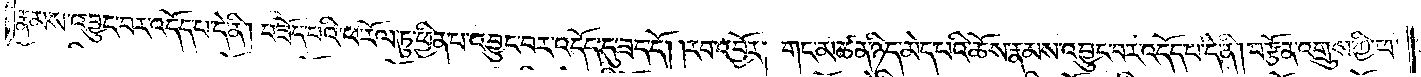རྣམས་འབྱུང་བར་འདོད་པ་དེ་ནི། བཟོད་པའི་ཕ་རོལ་ཏུ་ཕྱིན་པ་འབྱུང་བར་འདོད་དུ་ཟད་དོ། །རབ་འབྱོར། གང་མཚན་ཉིད་མེད་པའི་ཆོས་རྣམས་འབྱུང་བར་འདོད་པ་དེ་ནི། བརྩོན་འགྲུས་ཀྱི་ཕ་
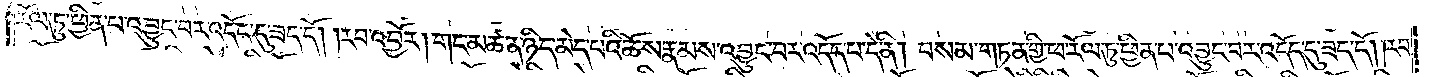རོལ་ཏུ་ཕྱིན་པ་འབྱུང་བར་འདོད་དུ་ཟད་དོ། །རབ་འབྱོར། གང་མཚན་ཉིད་མེད་པའི་ཆོས་རྣམས་འབྱུང་བར་འདོད་པ་དེ་ནི། བསམ་གཏན་གྱི་ཕ་རོལ་ཏུ་ཕྱིན་པ་འབྱུང་བར་འདོད་དུ་ཟད་དོ། །རབ་
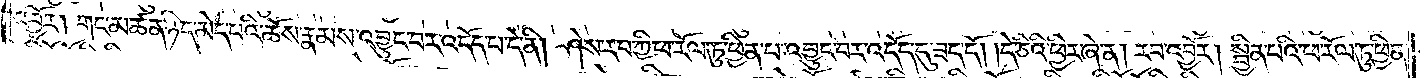འབྱོར། གང་མཚན་ཉིད་མེད་པའི་ཆོས་རྣམས་འབྱུང་བར་འདོད་པ་དེ་ནི། ཤེས་རབ་ཀྱི་ཕ་རོལ་ཏུ་ཕྱིན་པ་འབྱུང་བར་འདོད་དུ་ཟད་དོ། །དེ་ཅིའི་ཕྱིར་ཞེ་ན། རབ་འབྱོར། སྦྱིན་པའི་ཕ་རོལ་ཏུ་ཕྱིན་
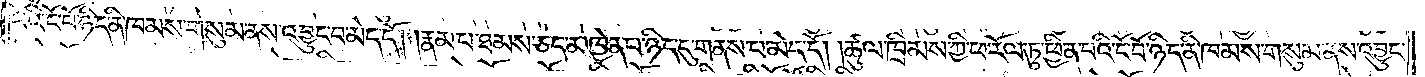པའི་ངོ་བོ་ཉིད་ནི་ཁམས་གསུམ་ནས་འབྱུང་བ་མེད་དོ། །རྣམ་པ་ཐམས་ཅད་མཁྱེན་པ་ཉིད་དུ་གནས་པ་མེད་དོ། །ཚུལ་ཁྲིམས་ཀྱི་ཕ་རོལ་ཏུ་ཕྱིན་པའི་ངོ་བོ་ཉིད་ནི་ཁམས་གསུམ་ནས་འབྱུང་
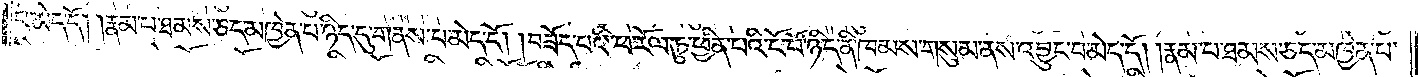བ་མེད་དོ། །རྣམ་པ་ཐམས་ཅད་མཁྱེན་པ་ཉིད་དུ་གནས་པ་མེད་དོ། །བཟོད་པའི་ཕ་རོལ་ཏུ་ཕྱིན་པའི་ངོ་བོ་ཉིད་ནི་ཁམས་གསུམ་ནས་འབྱུང་བ་མེད་དོ། །རྣམ་པ་ཐམས་ཅད་མཁྱེན་པ་
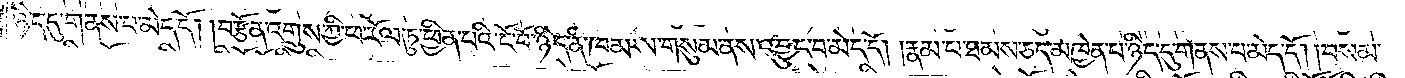ཉིད་དུ་གནས་པ་མེད་དོ། །བརྩོན་འགྲུས་ཀྱི་ཕ་རོལ་ཏུ་ཕྱིན་པའི་ངོ་བོ་ཉིད་ནི་ཁམས་གསུམ་ནས་འབྱུང་བ་མེད་དོ། །རྣམ་པ་ཐམས་ཅད་མཁྱེན་པ་ཉིད་དུ་གནས་པ་མེད་དོ། །བསམ་
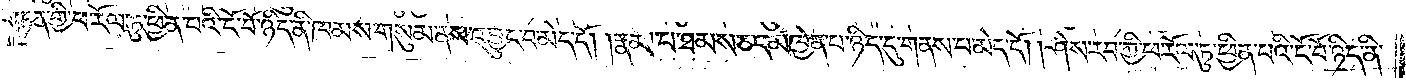གཏན་གྱི་ཕ་རོལ་ཏུ་ཕྱིན་པའི་ངོ་བོ་ཉིད་ནི་ཁམས་གསུམ་ནས་འབྱུང་བ་མེད་དོ། །རྣམ་པ་ཐམས་ཅད་མཁྱེན་པ་ཉིད་དུ་གནས་པ་མེད་དོ། །ཤེས་རབ་ཀྱི་ཕ་རོལ་ཏུ་ཕྱིན་པའི་ངོ་བོ་ཉིད་ནི་
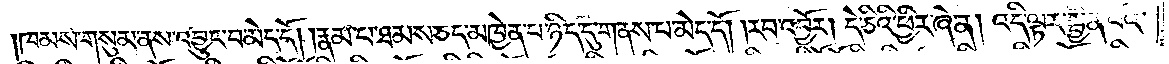ཁམས་གསུམ་ནས་འབྱུང་བ་མེད་དོ། །རྣམ་པ་ཐམས་ཅད་མཁྱེན་པ་ཉིད་དུ་གནས་པ་མེད་དོ། །རབ་འབྱོར། དེ་ཅིའི་ཕྱིར་ཞེ་ན། འདི་ལྟར་སྦྱིན་པའི་
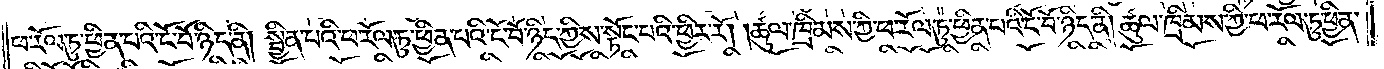ཕ་རོལ་ཏུ་ཕྱིན་པའི་ངོ་བོ་ཉིད་ནི། སྦྱིན་པའི་ཕ་རོལ་ཏུ་ཕྱིན་པའི་ངོ་བོ་ཉིད་ཀྱིས་སྟོང་པའི་ཕྱིར་རོ། །ཚུལ་ཁྲིམས་ཀྱི་ཕ་རོལ་ཏུ་ཕྱིན་པའི་ངོ་བོ་ཉིད་ནི། ཚུལ་ཁྲིམས་ཀྱི་ཕ་རོལ་ཏུ་ཕྱིན་
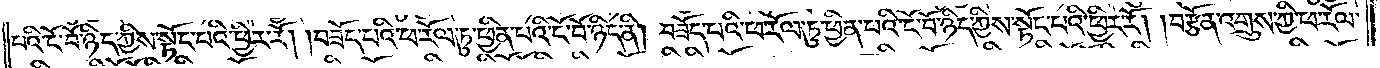པའི་ངོ་བོ་ཉིད་ཀྱིས་སྟོང་པའི་ཕྱིར་རོ། །བཟོད་པའི་ཕ་རོལ་ཏུ་ཕྱིན་པའི་ངོ་བོ་ཉིད་ནི། བཟོད་པའི་ཕ་རོལ་ཏུ་ཕྱིན་པའི་ངོ་བོ་ཉིད་ཀྱིས་སྟོང་པའི་ཕྱིར་རོ། །བརྩོན་འགྲུས་ཀྱི་ཕ་རོལ་
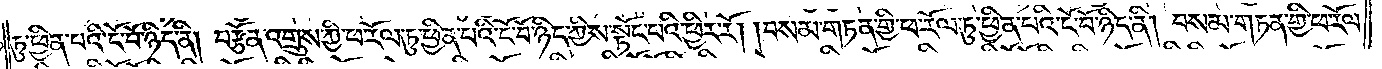ཏུ་ཕྱིན་པའི་ངོ་བོ་ཉིད་ནི། བརྩོན་འགྲུས་ཀྱི་ཕ་རོལ་ཏུ་ཕྱིན་པའི་ངོ་བོ་ཉིད་ཀྱིས་སྟོང་པའི་ཕྱིར་རོ། །བསམ་གཏན་གྱི་ཕ་རོལ་ཏུ་ཕྱིན་པའི་ངོ་བོ་ཉིད་ནི། བསམ་གཏན་གྱི་ཕ་རོལ་
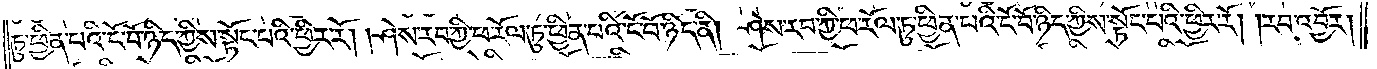ཏུ་ཕྱིན་པའི་ངོ་བོ་ཉིད་ཀྱིས་སྟོང་པའི་ཕྱིར་རོ། །ཤེས་རབ་ཀྱི་ཕ་རོལ་ཏུ་ཕྱིན་པའི་ངོ་བོ་ཉིད་ནི། ཤེས་རབ་ཀྱི་ཕ་རོལ་ཏུ་ཕྱིན་པའི་ངོ་བོ་ཉིད་ཀྱིས་སྟོང་པའི་ཕྱིར་རོ། །རབ་འབྱོར།
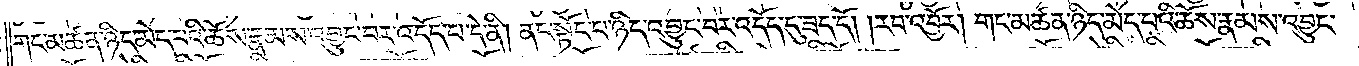གང་མཚན་ཉིད་མེད་པའི་ཆོས་རྣམས་འབྱུང་བར་འདོད་པ་དེ་ནི། ནང་སྟོང་པ་ཉིད་འབྱུང་བར་འདོད་དུ་ཟད་དོ། །རབ་འབྱོར། གང་མཚན་ཉིད་མེད་པའི་ཆོས་རྣམས་འབྱུང་
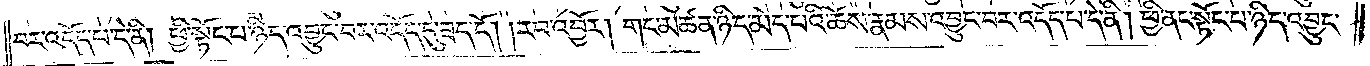བར་འདོད་པ་དེ་ནི། ཕྱི་སྟོང་པ་ཉིད་འབྱུང་བར་འདོད་དུ་ཟད་དོ། །རབ་འབྱོར། གང་མཚན་ཉིད་མེད་པའི་ཆོས་རྣམས་འབྱུང་བར་འདོད་པ་དེ་ནི། ཕྱི་ནང་སྟོང་པ་ཉིད་འབྱུང་
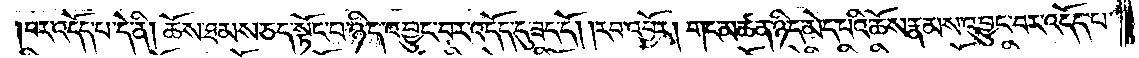བར་འདོད་པ་དེ་ནི། ཆོས་ཐམས་ཅད་སྟོང་པ་ཉིད་འབྱུང་བར་འདོད་དུ་ཟད་དོ། །རབ་འབྱོར། གང་མཚན་ཉིད་མེད་པའི་ཆོས་རྣམས་འབྱུང་བར་འདོད་པ་
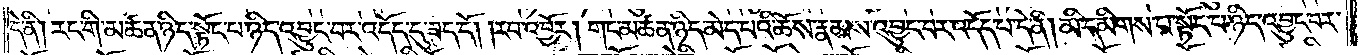དེ་ནི། རང་གི་མཚན་ཉིད་སྟོང་པ་ཉིད་འབྱུང་བར་འདོད་དུ་ཟད་དོ། །རབ་འབྱོར། གང་མཚན་ཉིད་མེད་པའི་ཆོས་རྣམས་འབྱུང་བར་འདོད་པ་དེ་ནི། མི་དམིགས་པ་སྟོང་པ་ཉིད་འབྱུང་བར་
